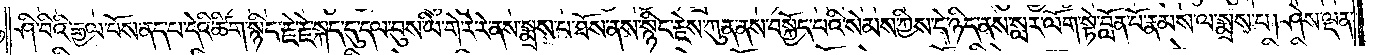ཤི་བིའི་རྒྱལ་པོས་ནད་པ་དེའི་ཚིག་སྙིང་རྗེ་རྗེ་སྐད་དུ་དལ་བུས་ཡི་གེ་རེ་རེ་ནས་སྨྲས་པ་ཐོས་ནས་སྙིང་རྗེས་ཀུན་ནས་བསྐྱོད་པའི་སེམས་ཀྱིས་དེ་ཉིད་ནས་སླར་ལོག་སྟེ་བློན་པོ་རྣམས་ལ་སྨྲས་པ། ཤེས་ལྡན་
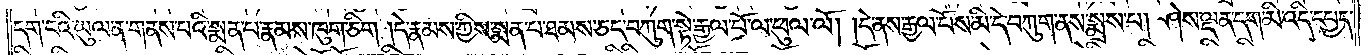དག་ངའི་ཡུལ་ན་གནས་པའི་སྨན་པ་རྣམས་ཁུག་ཅིག །དེ་རྣམས་ཀྱིས་སྨན་པ་ཐམས་ཅད་བཀུག་སྟེ་རྒྱལ་པོ་ལ་ཕུལ་ལོ། །དེ་ནས་རྒྱལ་པོས་མི་དེ་བཀུག་ནས་སྨྲས་པ། ཤེས་ལྡན་དག་མི་འདི་དཔྱད་
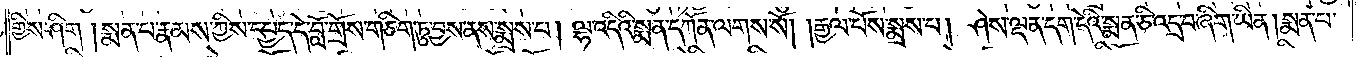གྱིས་ཤིག །སྨན་པ་རྣམས་ཀྱིས་དཔྱད་དེ་བློ་གྲོས་གཅིག་ཏུ་བྱས་ནས་སྨྲས་པ། ལྷ་འདིའི་སྨན་དཀོན་ལགས་སོ། །རྒྱལ་པོས་སྨྲས་པ། ཤེས་ལྡན་དག་དེའི་སྨན་ཅི་འདྲ་བ་ཞིག་ཡིན། སྨན་པ་
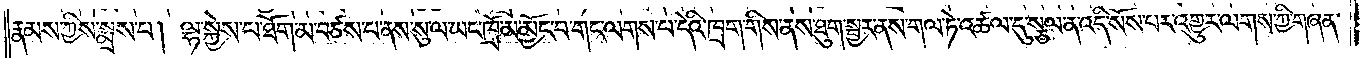རྣམས་ཀྱིས་སྨྲས་པ། ལྷ་སྐྱེས་པ་ཐོག་མ་བཙས་པ་ནས་སུ་ལ་ཡང་ཁྲོ་མ་མྱོང་བ་གང་ལགས་པ་དེའི་ཁྲག་གིས་ནས་ཐུག་སྦྱར་ནས་གལ་ཏེ་འཚལ་དུ་སྩལ་ན་འདི་སོས་པར་འགྱུར་ལགས་ཀྱི་གཞན་
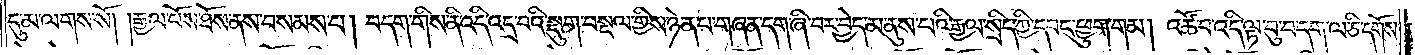དུ་མ་ལགས་སོ། །རྒྱལ་པོས་ཐོས་ནས་བསམས་པ། བདག་གིས་ནི་འདི་འདྲ་བའི་སྡུག་བསྔལ་གྱིས་ཉེན་པ་གཞན་དག་ཞི་བར་བྱེད་མི་ནུས་པའི་རྒྱལ་སྲིད་ཀྱི་དབང་ཕྱུག་གམ། འཚོ་བ་འདི་ལྟ་བུ་བདག་ལ་ཅི་དགོས་
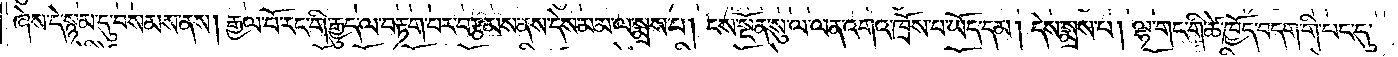ཞེས་དེ་སྙམ་དུ་བསམས་ནས། རྒྱལ་པོ་རང་གི་རྒྱུད་ལ་བརྟག་པར་བརྩམས་ནས་དེས་མ་མ་ལ་སྨྲས་པ། ངས་སྔོན་སུ་ལ་ལན་འགའ་ཁྲོས་པ་ཡོད་དམ། དེས་སྨྲས་པ། ལྷ་གང་གི་ཚེ་ཁྱོད་བདག་གི་པང་དུ་
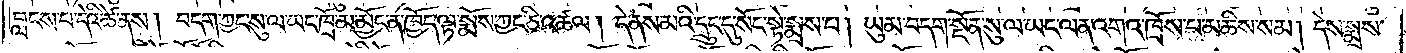བླངས་པ་དེའི་ཚེ་ནས། བདག་ཀྱང་སུ་ལ་ཡང་ཁྲོ་མ་མྱོང་ན་ཁྱོད་ལྟ་སྨོས་ཀྱང་ཅི་འཚལ། དེ་ནས་མའི་དྲུང་དུ་སོང་སྟེ་སྨྲས་པ། ཡུམ་བདག་སྔོན་སུ་ལ་ཡང་ལན་འགའ་ཁྲོས་པ་མཆིས་སམ། དེས་སྨྲས་
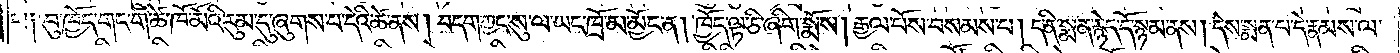པ༑ བུ་ཁྱོད་གང་གི་ཚེ་ཁོ་མོའི་རུམ་དུ་ཞུགས་པ་དེའི་ཚེ་ནས། བདག་ཀྱང་སུ་ལ་ཡང་ཁྲོ་མ་མྱོང་ན། ཁྱོད་ལྟ་ཅི་ཞིག་སྨོས། རྒྱལ་པོས་བསམས་པ། ད་ནི་སྨན་རྙེད་དོ་སྙམ་ནས། དེས་སྨན་པ་དེ་རྣམས་ལ་
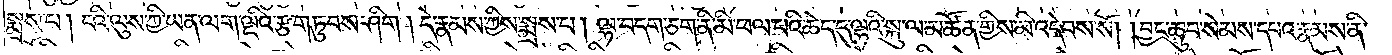སྨྲས་པ། ངའི་ལུས་ཀྱི་ཡན་ལག་ལྔའི་རྩ་གཏུབས་ཤིག །དེ་རྣམས་ཀྱིས་སྨྲས་པ། ལྷ་བདག་ཅག་ནི་མི་ཕལ་པའི་ཆེད་དུ་ལྷའི་སྐུ་ལ་མཚོན་གྱིས་མི་འདེབས་སོ། །བྱང་ཆུབ་སེམས་དཔའ་རྣམས་ནི་
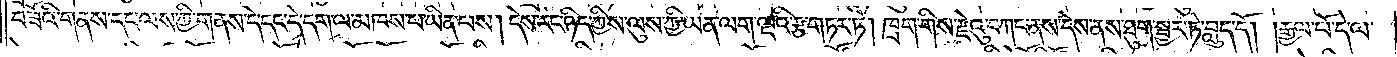བཟོའི་གནས་དང་ལས་ཀྱི་གནས་དེ་དང་དེ་དག་ལ་མཁས་པ་ཡིན་པས། དེས་རང་ཉིད་ཀྱིས་ལུས་ཀྱི་ཡན་ལག་ལྔའི་རྩ་གཏར་ཏེ། ཁྲག་གིས་རྫེའུ་བཀང་ནས་དེས་ནས་ཐུག་སྦྱར་ཏེ་བླུད་དོ། །རྒྱལ་པོ་དེ་ལ་
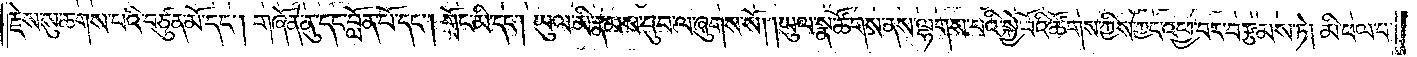རྗེས་སུ་ཆགས་པའི་བཙུན་མོ་དང༌། གཞོན་ནུ་དང་བློན་པོ་དང༌། གྲོང་མི་དང༌། ཡུལ་མི་རྣམས་དུ་བ་ལ་ཞུགས་སོ། །ཡུལ་སྣ་ཚོགས་ནས་ལྷགས་པའི་སྐྱེ་བོའི་ཚོགས་ཀྱིས་ཀྱང་འཕྱ་བར་བརྩམས་ཏེ། མི་ཕལ་བ་
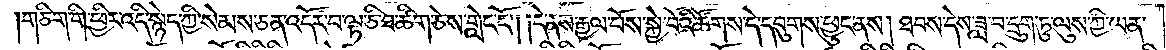གཅིག་གི་ཕྱིར་འདི་སྙེད་ཀྱི་སེམས་ཅན་འདོར་བ་ལྟ་ཅི་ཐ་ཚིག་ཅེས་གླེང་ངོ༌། །དེ་ནས་རྒྱལ་པོས་སྐྱེ་བོའི་ཚོགས་དེ་དབུགས་ཕྱུང་ནས། ཐབས་དེས་ཟླ་བ་དྲུག་ཏུ་ལུས་ཀྱི་ཡན་
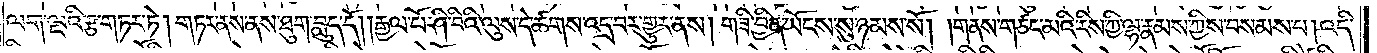ལག་ལྔའི་རྩ་གཏར་ཏེ། གཏར་ནས་ནས་ཐུག་བླུད་དོ། །རྒྱལ་པོ་ཤི་བིའི་ལུས་དེ་ཚགས་འདྲ་བར་གྱུར་ནས། གཟི་བྱིན་ཡོངས་སུ་ཉམས་སོ། །གནས་གཙང་མའི་རིས་ཀྱི་ལྷ་རྣམས་ཀྱིས་བསམས་པ། འདི་
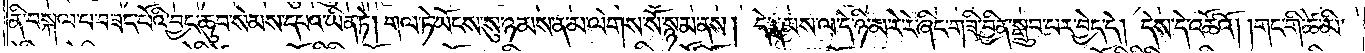ནི་བསྐལ་པ་བཟང་པོའི་བྱང་ཆུབ་སེམས་དཔའ་ཡིན་ཏེ། གལ་ཏེ་ཡོངས་སུ་ཉམས་ན་མ་ལེགས་སོ་སྙམ་ནས། དེ་རྣམས་ལ་དེ་ཉི་མ་རེ་རེ་ཞིང་གཟི་བྱིན་སྒྲུབ་པར་བྱེད་དེ། དེས་དེ་འཚོའོ། །གང་གི་ཚེ་མི་
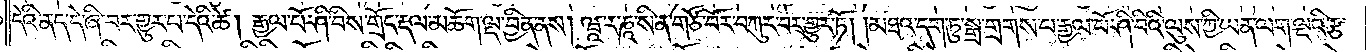དེའི་ནད་དེ་ཞི་བར་གྱུར་པ་དེའི་ཚེ། རྒྱལ་པོ་ཤི་བིས་གྲོང་རྡལ་མཆོག་ལྔ་བྱིན་ནས། ཝཱ་ར་ཎཱ་སི་ན་གཙོ་བོར་བཀུར་བར་གྱུར་ཏོ། །མཐའ་དག་ཏུ་སྒྲ་གྲགས་པ་རྒྱལ་པོ་ཤི་བིའི་ལུས་ཀྱི་ཡན་ལག་ལྔའི་རྩ་
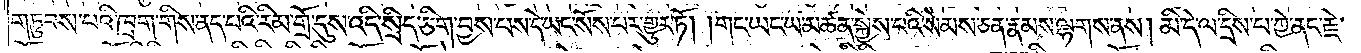གཏུབས་པའི་ཁྲག་གིས་ནད་པའི་རིམ་གྲོ་དུས་འདི་སྲིད་ཅིག་བྱས་པས་དེ་ཡང་སོས་པར་གྱུར་ཏོ། །གང་ཡང་ཡ་མཚན་སྐྱེས་པའི་སེམས་ཅན་རྣམས་ལྷགས་ནས། མི་དེ་ལ་དྲིས་པ་ཀྱེ་ནང་རྗེ་
